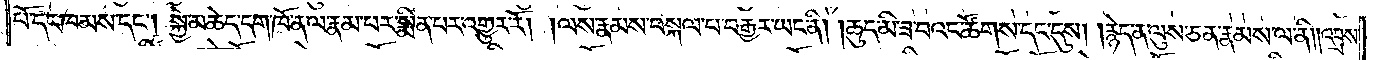པོ་དང་ཁམས་དང༌། སྐྱེ་མཆེད་དག་ཁོ་ན་ལ་རྣམ་པར་སྨིན་པར་འགྱུར་རོ། །ལས་རྣམས་བསྐལ་པ་བརྒྱར་ཡང་ནི། །ཆུད་མི་ཟ་བའང་ཚོགས་དང་དུས། །རྙེད་ན་ལུས་ཅན་རྣམས་ལ་ནི། །འབྲས་
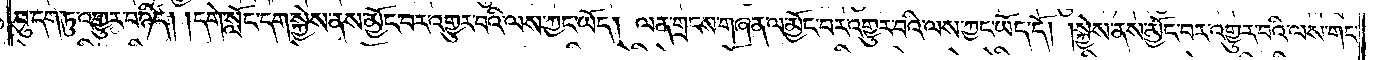བུ་དག་ཏུ་འགྱུར་བ་ཉིད། །དགེ་སློང་དག་སྐྱེས་ནས་མྱོང་བར་འགྱུར་བའི་ལས་ཀྱང་ཡོད། ལན་གྲངས་གཞན་ལ་མྱོང་བར་འགྱུར་བའི་ལས་ཀྱང་ཡོད་དོ། །སྐྱེས་ནས་མྱོང་བར་འགྱུར་པའི་ལས་གང་
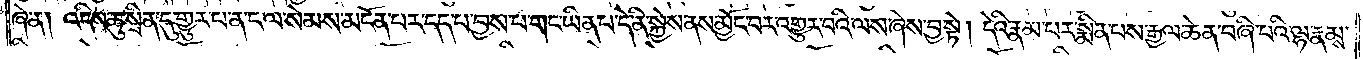ཞེ་ན། འདིས་ཆུ་སྲིན་དུ་གྱུར་པ་ན་ང་ལ་སེམས་མངོན་པར་དད་པ་བྱས་པ་གང་ཡིན་པ་དེ་ནི་སྐྱེས་ནས་མྱོང་བར་འགྱུར་བའི་ལས་ཞེས་བྱ་སྟེ། དེའི་རྣམ་པར་སྨིན་པས་རྒྱལ་ཆེན་བཞི་པའི་ལྷ་རྣམས་
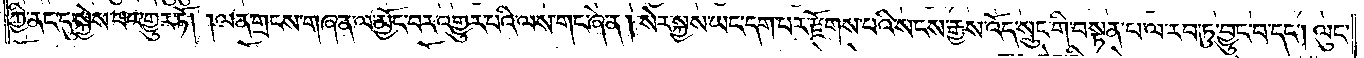ཀྱི་ནང་དུ་སྐྱེས་པར་གྱུར་ཏོ། །ལན་གྲངས་གཞན་ལ་མྱོང་བར་འགྱུར་བའི་ལས་གང་ཞེ་ན། སེར་སྐྱས་ཡང་དག་པར་རྫོགས་པའི་སངས་རྒྱས་འོད་སྲུང་གི་བསྟན་པ་ལ་རབ་ཏུ་བྱུང་བ་དང༌། ལུང་
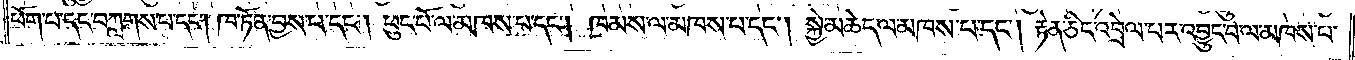ཕོག་པ་དང་བཀླགས་པ་དང༌། ཁ་ཏོན་བྱས་པ་དང༌། ཕུང་པོ་ལ་མཁས་པ་དང༌། ཁམས་ལ་མཁས་པ་དང༌། སྐྱེ་མཆེད་ལ་མཁས་པ་དང༌། རྟེན་ཅིང་འབྲེལ་པར་འབྱུང་བ་ལ་མཁས་པ་
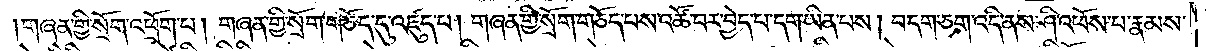གཞན་གྱི་སྲོག་འཕྲོག་པ། གཞན་གྱི་སྲོག་གཅོད་དུ་འཛུད་པ། གཞན་གྱི་སྲོག་གཅོད་པས་འཚོ་བར་བྱེད་པ་དག་ཡིན་པས། བདག་ཅག་འདི་ནས་ཤི་འཕོས་པ་རྣམས་
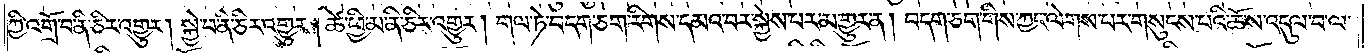ཀྱི་འགྲོ་བ་ནི་ཅིར་འགྱུར། སྐྱེ་བ་ནི་ཅིར་འགྱུར། ཚེ་ཕྱི་མ་ནི་ཅིར་འགྱུར། གལ་ཏེ་བདག་ཅག་རིགས་དམའ་བར་སྐྱེས་པར་མ་གྱུར་ན། བདག་ཅག་གིས་ཀྱང་ལེགས་པར་གསུངས་པའི་ཆོས་འདུལ་བ་ལ་
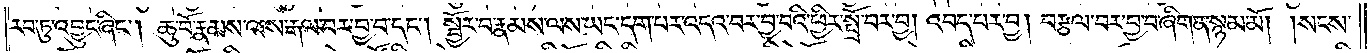རབ་ཏུ་འབྱུང་ཞིང༌། ཆུ་བོ་རྣམས་ལས་རྒལ་བར་བྱ་བ་དང༌། སྦྱོར་བ་རྣམས་ལས་ཡང་དག་པར་འདའ་བར་བྱ་བའི་ཕྱིར་སྤྲོ་བར་བྱ། འབད་པར་བྱ། བརྩལ་བར་བྱ་བ་ཞིག་ན་སྙམ་མོ། །སངས་
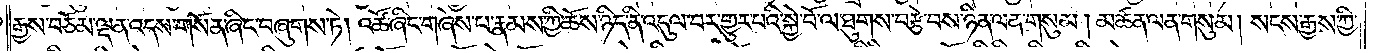རྒྱས་བཅོམ་ལྡན་འདས་གསོན་ཞིང་བཞུགས་ཏེ། འཚོ་ཞིང་གཞེས་པ་རྣམས་ཀྱི་ཆོས་ཉིད་ནི་འདུལ་བར་གྱུར་པའི་སྐྱེ་བོ་ལ་ཐུགས་བརྩེ་བས་ཉིན་ལན་གསུམ། མཚན་ལན་གསུམ། སངས་རྒྱས་ཀྱི་
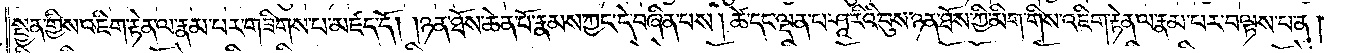སྤྱན་གྱིས་འཇིག་རྟེན་ལ་རྣམ་པར་གཟིགས་པ་མཛད་དོ། །ཉན་ཐོས་ཆེན་པོ་རྣམས་ཀྱང་དེ་བཞིན་པས། ཚེ་དང་ལྡན་པ་ཤཱ་རིའི་བུས་ཉན་ཐོས་ཀྱི་མིག་གི་འཇིག་རྟེན་ལ་རྣམ་པར་བལྟས་པ་ན།
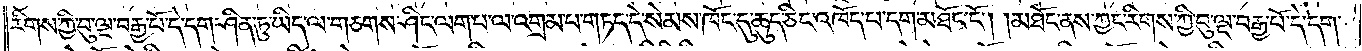རིགས་ཀྱི་བུ་ལྔ་བརྒྱ་པོ་དེ་དག་ཤིན་ཏུ་ཡིད་ལ་གཅགས་ཤིང་ལག་པ་ལ་འགྲམ་པ་གཏད་དེ་སེམས་ཁོང་དུ་ཆུད་ཅིང་འཁོད་པ་དག་མཐོང་ངོ༌། །མཐོང་ནས་ཀྱང་རིགས་ཀྱི་བུ་ལྔ་བརྒྱ་པོ་དེ་དག་
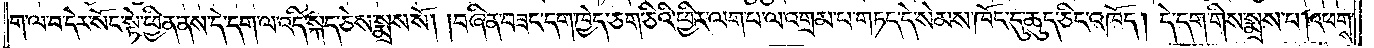ག་ལ་བ་དེར་སོང་སྟེ་ཕྱིན་ནས་དེ་དག་ལ་འདི་སྐད་ཅེས་སྨྲས་སོ། །བཞིན་བཟང་དག་ཁྱེད་ཅག་ཅིའི་ཕྱིར་ལག་པ་ལ་འགྲམ་པ་གཏད་དེ་སེམས་ཁོང་དུ་ཆུད་ཅིང་འཁོད། དེ་དག་གིས་སྨྲས་པ། འཕགས་
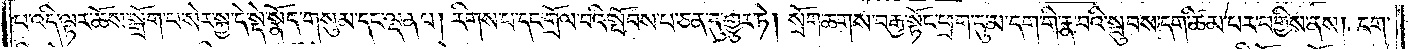པ་འདི་ལྟར་ཆོས་སྒྲོག་པ་སེར་སྐྱ་དེ་སྡེ་སྣོད་གསུམ་དང་ལྡན་པ། རིགས་པ་དང་གྲོལ་བའི་སྤོབས་པ་ཅན་དུ་གྱུར་ཏེ། སྲོག་ཆགས་བརྒྱ་སྟོང་ཕྲག་དུ་མ་དག་གི་རྣ་བའི་སྦུབས་དག་ཚིམ་པར་བགྱིས་ནས། ངག་
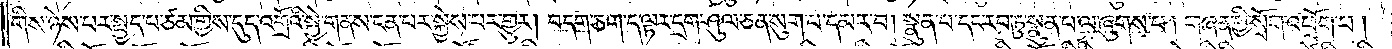གིས་ཉེས་པར་སྤྱད་པ་ཙམ་གྱིས་དུད་འགྲོའི་སྐྱེ་གནས་ངན་པར་སྐྱེས་པར་གྱུར། བདག་ཅག་ད་ལྟར་དྲག་ཤུལ་ཅན་སུག་པ་དམར་བ། སྣུན་པ་དང་རབ་ཏུ་སྣུན་པ་ལ་ཞུགས་པ། གཞན་གྱི་སྲོག་འཕྲོག་པ།
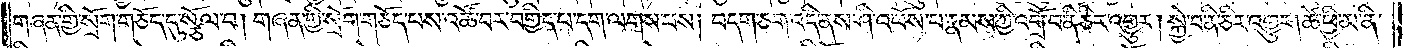གཞན་གྱི་སྲོག་གཅོད་དུ་སྩོལ་བ། གཞན་གྱི་སྲོག་གཅོད་པས་འཚོ་བར་བགྱིད་པ་དག་ལགས་པས། བདག་ཅག་འདི་ནས་ཤི་འཕོས་པ་རྣམས་ཀྱི་འགྲོ་བ་ནི་ཅིར་འགྱུར། སྐྱེ་བ་ནི་ཅིར་འགྱུར། ཚེ་ཕྱི་མ་ནི་
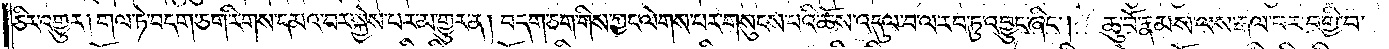ཅིར་འགྱུར། གལ་ཏེ་བདག་ཅག་རིགས་དམའ་བར་སྐྱེས་པར་མ་གྱུར་ན། བདག་ཅག་གིས་ཀྱང་ལེགས་པར་གསུངས་པའི་ཆོས་འདུལ་བ་ལ་རབ་ཏུ་འབྱུང་ཞིང༌། ཆུ་བོ་རྣམས་ལས་རྒལ་བར་བགྱི་བ་
